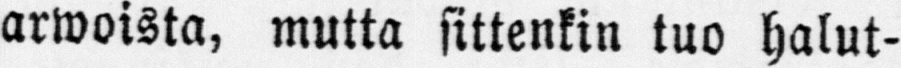arwoista, mutta sittenkin tuo halut-
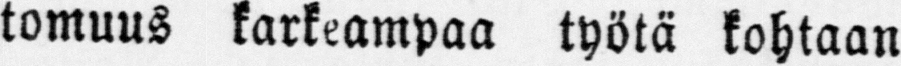tomuus karkeampaa työtä kohtaan
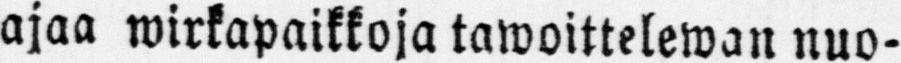ajaa wirkapaikkoja tawoittelewan nuo-
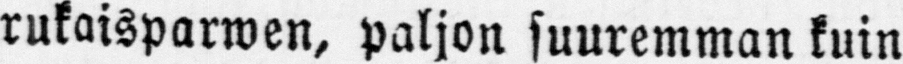rukaisparwen, paljon suuremman kuin
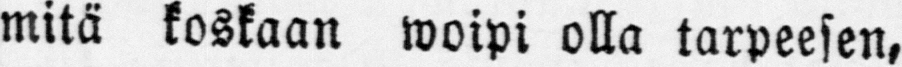mitä koskaan woipi olla tarpeesen,
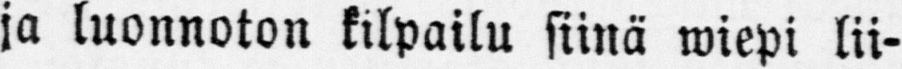ja luonnoton kilpailu siinä wiepi lii-
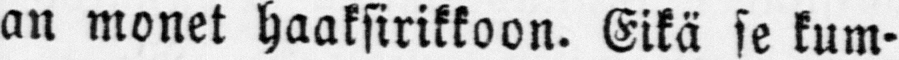an monet haaksirikkoon. Eikä se kum-
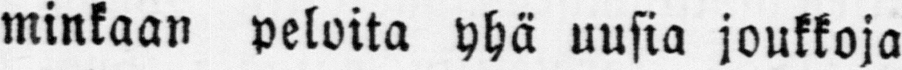minkaan peloita yhä uusia joukkoja
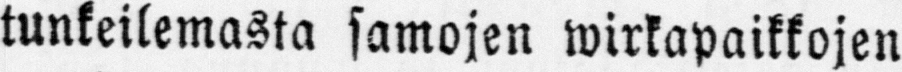tunkeilemasta samojen wirkapaikkojen
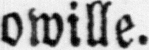owille.
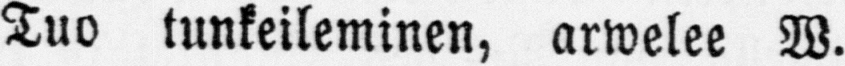Tuo tunkeileminen, arwelee W.
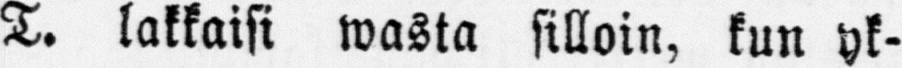T. lakkaisi wasta silloin, kun yk-
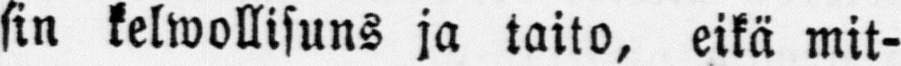sin kelwollisuns ja taito, eikä mit-
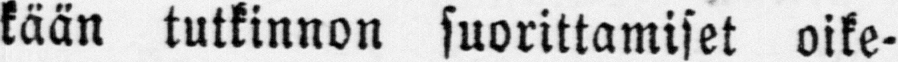kään tutkinnon suorittamiset oike-
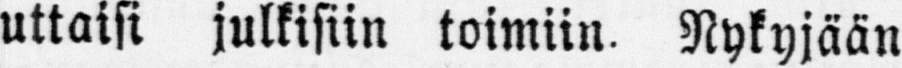uttaisi julkisiin toimiin. Nykyjään
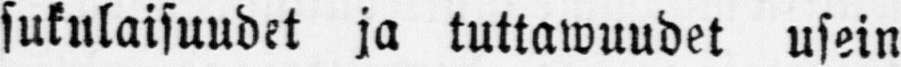sukulaisuudet ja tuttawuudet usein
